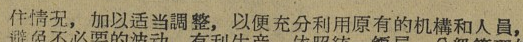住情况，加以适当調整，以便充分利用原有的机構和人員，
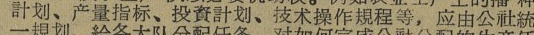計划、产量指标、投資計划、技术操作規程等，应由公社統
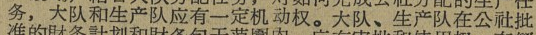务，大队和生产队应有一定机 动权。大队、生产队在公社批
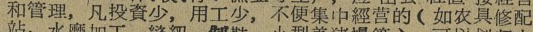和管理，凡投資少，用功少，不便集中經营的（如农具修配
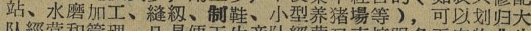站、水磨加工、縫紉、制鞋、小型养猪場等），可以划归大
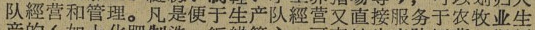队經营和管理。凡是便于生产队經营又直接服务于农牧业生
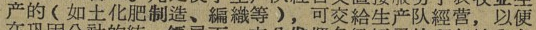产的（如土化肥制造、編織等），可交給生产队經营，以便
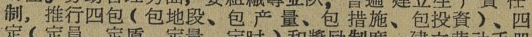制，推行四包（包地段、包 产 量、包 措施、包投資）、四
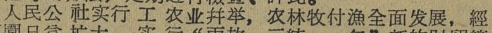人民公 社实行 工 农业并举，农林牧付漁全面发展，經
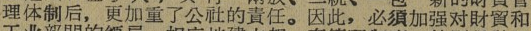理体制后，更加重了公社的責任。因此，必須加强对財貿和
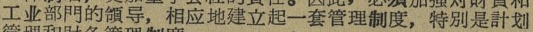工业部門的領导，相应地建立起一套管理制度，特別是計划
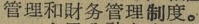管理和財务管理制度。
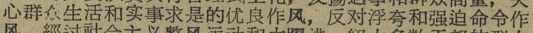心群众生活和实事求是的优良作风，反对浮夸和强迫命令作
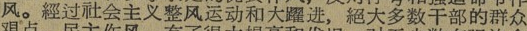风。經过社会主义整风运动和大躍进，绝大多数干部的群众
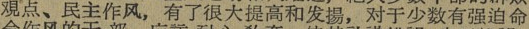覌点、民主作风，有了很大提高和发揚，对于少数有强迫 命
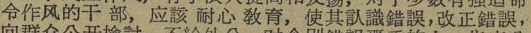令作风的干 部，应該 耐心 敎育，使其认識錯誤，改正錯誤，
